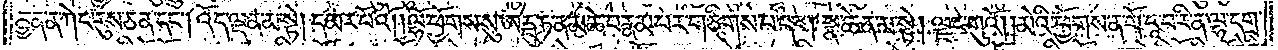ཨོཾ་ཨཱཿ ཧཱུཾ་ཧོཿ བྷ་ག་ཝཱ་ན་མ་ཧཱ་སུ་ཁ་ཨུཏྟ་ར་ཨུཏྟ་ར། སརྦྦ་ཨུཏྟ་མ་སཽ་ཁྱ་མ་ཡ་ཧཱུཾ། ཨ་ལ་ལ་ཧོ། །མཧཱ་སུ་ཁ་སྟྭཾ། བ་ར་མ་སུ་ཁཱ་མ་ལཻ་དུ་བི་བི་ཨུཏྟ་མ་ཛཱ་ལ་སུ་ཁཾ་ཨ་ལ་ལ་ཧོ། །སུ་ར་ཏེ་སཽ་
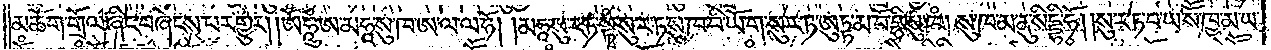མཆོག་གྲོལ་ཞིང་བཞེངས་པར་གྱུར། །ཨོ་ཧཱུ་ཨ་མཧཱ་སུ་ཁ་ཨ་ལ་ལ་ཧོ། །མ་ཧྰ་སུ་ར་ཏ་སྟི་སུ་ར་ཏ་ས་ཁ་བི་ཡོ་ག་སུ་ར་ཏ་ཨུ་ཏྟ་མ་བོ་དྒི་སུ་ཁྃ། སུ་ཁ་མ་ནུ་སིདྡྷི་ཧོ། །སུ་ར་ཏ་བ་ཡ་སོོ་ཁྱ་མ་ཡ་
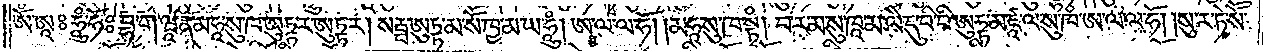ཨོཾ་ཨཱཿཧཱུཾ་ཧོཿབྷ་ག་ལྦཱ་ན་མ་ཧཱ་སུ་ཁ་ཨུ་ཏྟ་ར་ཨུ་ཏྟ་ར། སརྦྦ་ཨུ་ཏྟ་མ་སོོ་ཁྱ་མ་ཡ་ཧཱུཾ། ཨ་ལ་ལ་ཧོ། །མ་ཧཱ་སུ་ཁ་སྟཾ། བ་ར་མ་སུ་ཁཱ་མ་ལེེ་དུ་བི་བི་ཨུ་ཏྟ་མ་ཛཱ་ལ་སུ་ཁ་ཨ་ལ་ལ་ཧོ། །སུ་ར་ཏེ་སོ་
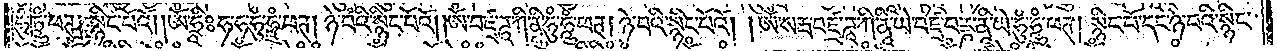ཧུཾ་ཧཱུཾ་ཕཊ། སྙིང་པོའོ། །ཨོཾ་ཧྲཱིཿ ཧ་ཧ་ཧུཾ་ཧཱུཾ་ཕཊ། ཉེ་བའི་སྙིང་པོའོ། །ཨོཾ་བཛྲ་ཌཱ་ཀི་ནཱི་ཧུཾ་ཧཱུཾ་ཕཊ། ཉེ་བའི་སྙིང་པོའོ། །ཨོཾ་སརྦ་བཛྲ་ཌཱ་ཀི་ནཱི་ཡེ་བཛྲ་བརྞ་ནཱི་ཡེ་ཧུཾ་ཧཱུཾ་ཕཊ། སྙིང་པོ་དང་ཉེ་བའི་སྙིང་
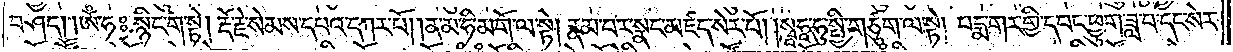བཤད། །ཨོཾ་ཧཿ སྙིང་ག་སྟེ། རྡོ་རྗེ་སེམས་དཔའ་དཀར་པོ། །ན་མ་ཧི་མགོ་ལ་སྟེ། རྣམ་པར་སྣང་མཛད་སེར་པོ། །སྭཱ་ཧཱ་ཧུ་སྤྱི་གཙུག་ལ་སྟེ། པདྨ་གར་གྱི་དབང་ཕྱུག་ཟླ་བ་དང་སེར་
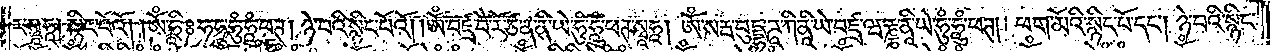ར་སྭཱཧཱ། སྙིང་པོའོ། །ཨོཾ་ཧྲཱིཿ ཧ་ཧ་ཧཱུཾ་ཧཱུཾ་ཕཊ། ཉེ་བའི་སྙིང་པོའོ། །ཨོཾ་བཛྲ་བཻ་རོ་ཙ་ན་ནི་ཡེ་ཧཱུཾ་ཧཱུཾ་ཕཊ་སྭཱཧཱ། ཨོཾ་སརྦ་བུདྡྷ་ཊཱ་ཀི་ནཱི་ཡེ་བཛྲ་ཝརྞྞ་ནཱི་ཡེ་ཧཱུཾ་ཧཱུཾ་ཕཊ། ཕག་མོའི་སྙིང་པོ་དང༌། ཉེ་བའི་སྙིང་
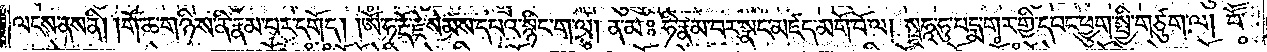ལངས་ནས་ནི། །གོ་ཆ་གཉིས་ནི་རྣམ་པར་དགོད། །ཨོཾ་ཧ་རྡོ་རྗེ་སེམས་དཔའ་སྙིང་ག་ལ། ན་མཿ ཧི་རྣམ་བར་སྣང་མཛད་མགོ་བོ་ལ། སྭཱཧཱ་ཧུ་པདྨ་གར་གྱི་དབང་ཕྱུག་སྤྱི་གཙུག་ལ། བཽ་
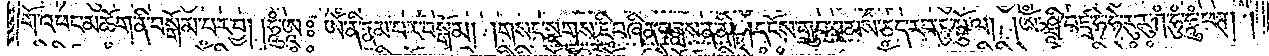གོ་འཕང་མཆོག་ནི་བསྒོམ་པར་བྱ། །ཧཱུཾ་ཨཱཿ ཨོཾ་ནི་རྣམ་པར་བསྒོམ། །གསང་སྔགས་ཇི་བཞིན་བཟླས་ན་ནི། །དངོས་གྲུབ་ཐམས་ཅད་རབ་ཏུ་སྩོལ། །ཨོཾ་ཤྲཱི་བཛྲ་ཧེ་ཧེ་རུ་རུ་ཀཾ་ཧཱུཾ་ཧཱུཾ་པཊ། །
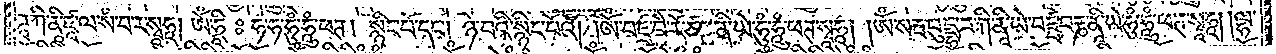ཌཱ་ཀི་ནཱི་ཛཱ་ལ་སཾ་བ་ར་སྭཱཧཱ། ཨོཾ་ཧྲཱིཿ ཧ་ཧ་ཧཱུཾ་ཧཱུཾ་ཕཊ། སྙིང་པོ་དང༌། ཉེ་བའི་སྙིང་པོའོ། །ཨོཾ་བཛྲ་བཻ་རོ་ཙ་ནི་ཡེ་ཧཱུཾ་ཧཱུཾ་ཕཊ་སྭཱཧཱ། །ཨོཾ་སརྦ་བུདྡྷ་ཊ་ཀི་ནཱི་ཡེ་བཛྲ་བརྞ་ནི་ཡེ་ཧཱུཾ་ཧཱུཾ་ཕཊ་སྭཱཧཱ། །ལྷ་
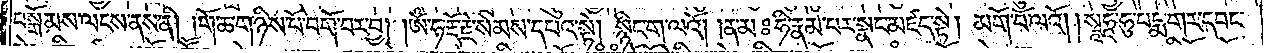བསྒོམས་ལངས་ནས་ནི། །གོ་ཆ་གཉིས་པོ་བགོ་བར་བྱ། །ཨོཾ་ཧ་རྡོ་རྗེ་སེམས་དཔའ་སྟེ། སྙིང་ག་ལའོ། །ན་མཿ ཧི་རྣམ་པར་སྣང་མཛད་སྟེ། མགོ་བོ་ལའོ། །སྭཱཧཱ་ཧུ་པདྨ་གར་དབང་
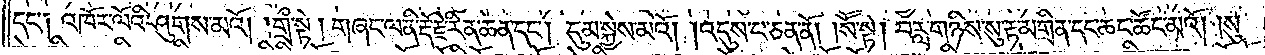དང༌། འཁོར་ལོའི་ཤུགས་མའོ། །གྲྀ་སྟེ། གཞང་ལ་ནི་རྡོ་རྗེ་རིན་ཆེན་དང༌། དུམ་སྐྱེས་མའོ། །འདུས་བ་ཅན་ནོ། །སཽ་སྟེ། བརླ་གཉིས་སུ་རྟ་མགྲིན་དང་ཆང་ཚོང་མའོ། །སུ་
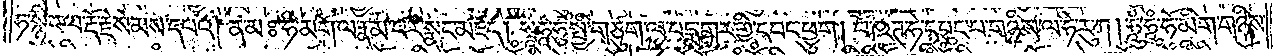ཧ་སྙིང་ལ་རྡོ་རྗེ་སེམས་དཔའ། ན་མཿ ཧི་མགོ་ལ་རྣམ་པར་སྣང་མཛད། སྭཱཧཱ་ཧུ་སྤྱི་གཙུག་ལ་པདྨ་གར་གྱི་དབང་ཕྱུག། བཽ་ཥཊ་ཧེ་དཔུང་པ་གཉིས་ལ་ཧེ་རུ་ཀ། ཧཱུཾ་ཧཱུཾ་ཧོ་མིག་གཉིས་
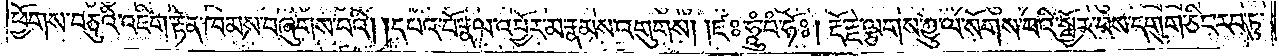ཕྱོགས་བཅུའི་འཇིག་རྟེན་ཁམས་བཞུགས་པའི། །དཔའ་བོ་རྣལ་འབྱོར་མ་རྣམས་འགུགས། །ཛཿཧཱུཾ་བཾ་ཧོཿ། རྡོ་རྗེ་ལྕགས་ཀྱུ་ལ་སོགས་པའི་སྦྱོར་བས་དགུག་ཅིང་རབ་ཏུ་
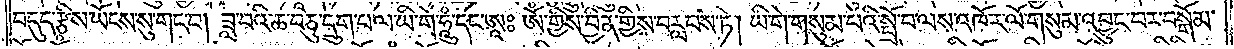བདུད་རྩིས་ཡོངས་སུ་གང་བ། ཟླ་བའི་ཆ་བཅུ་དྲུག་པ་ལ་ཡི་གེ་ཧཱུཾ་དང་ཨཱཿ ཨོཾ་གྱིས་བྱིན་གྱིས་བརླབས་ཏེ། ཡི་གེ་གསུམ་པའི་སྤྲོ་བ་ལས་འཁོར་ལོ་གསུམ་འབྱུང་བར་བསྒོམ་
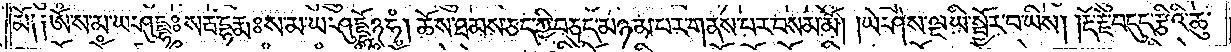མོ༑ ༑ཨོཾ་ས་མ་ཡ་ཤུདྡྷཿ སརྦ་དྷརྨཿ ས་མ་ཡ་ཤུདྡྷོཉཧཾ། ཆོས་ཐམས་ཅད་ཀྱི་བཅུད་མཉམ་པར་གནས་པར་བསམ་མོ། །ཡེ་ཤེས་ལྔ་ཡི་སྦྱོར་བ་ཡིས། །རྡོ་རྗེ་བདུད་རྩིའི་ཆུ་
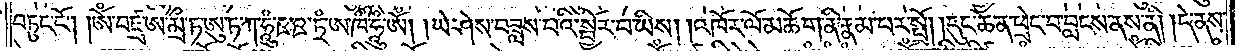བཏུང་ངོ༌། །ཨོཾ་བཛྲ་ཨ་མྲྀ་ཏ་ཨུ་ཏ་ཀ་ཧཱུཾ་ཋ་ཋ་ཏྲཾ་ཨ་ཁཾ་ཧཱུཾ་ཨོཾ། །ཡེ་ཤེས་བཟླས་པའི་སྦྱོར་བ་ཡིས། །འཁོར་ལོ་མཆོག་ནི་རྣམ་པར་སྤྲོ། །དུང་ཆེན་ཕྲེང་བ་བླངས་ནས་ནི། །དེ་ནས་
